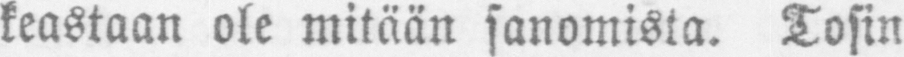keastaan ole mitään sanomista. Tosin
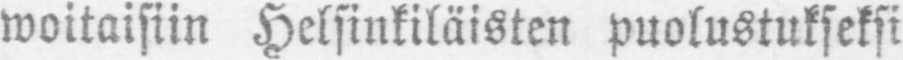woitaisiin Helsinkiläisten puolustukseksi
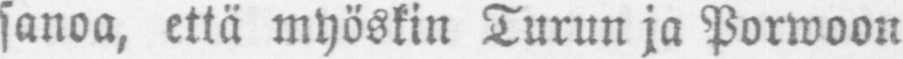sanoa, että myöskin Turun ja Porwoon
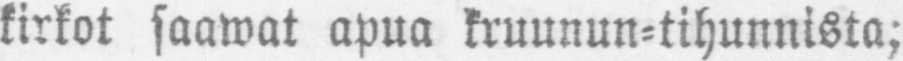kirkot saawat apua kruunun-tihunnista;
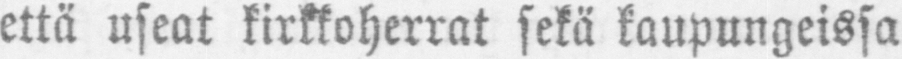että useat kirkkoherrat sekä kaupungeissa
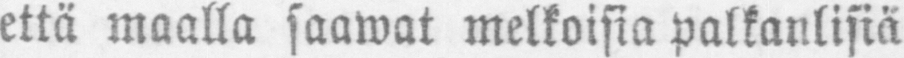että maalla saawat melkoisia palkanlisiä
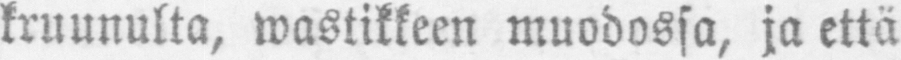kruunulta, wastikkeen muodossa, ja että
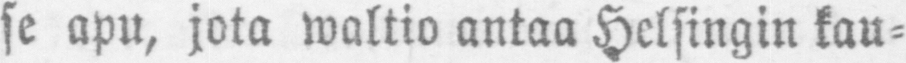se apu, jota waltio antaa Helsingin kau-
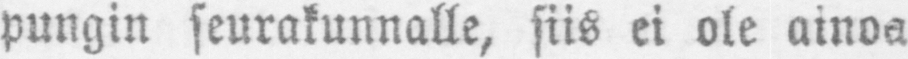pungin seurakunnalle, siis ei ole ainoa
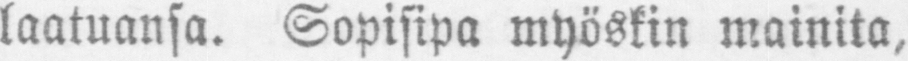laatuansa. Sopisipa myöskin mainita,
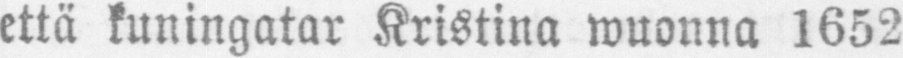että kuningatar Kristina wuonna 1652
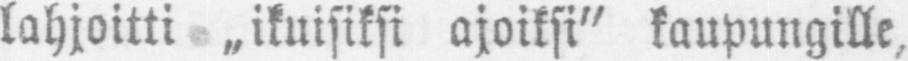lahjoitti „ikuisiksi ajoiksi" kaupungille,
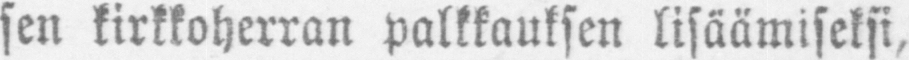sen kirkkoherran palkkauksen lisäämiseksi,
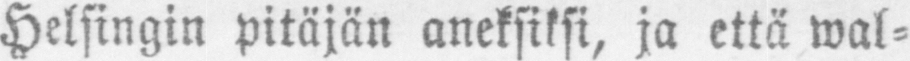Helsingin pitäjän aneksiksi, ja että wal-
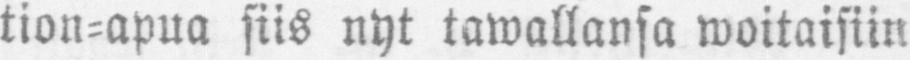tion-apua siis nyt tawallansa woitaisiin
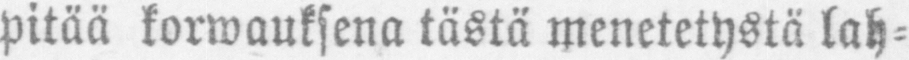pitää korwauksena tästä menetetystä lah-
